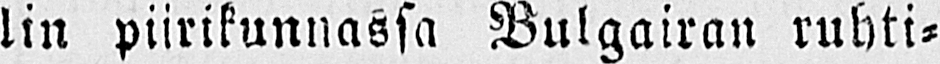lin piirikunnassa Bulgairan ruhti-
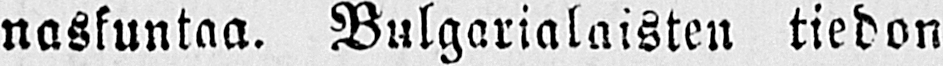naskuntaa. Bulgarialaisten tiedon
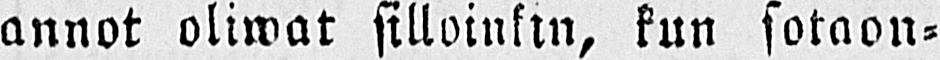annot oliwat silloinkin, kun sotaon-
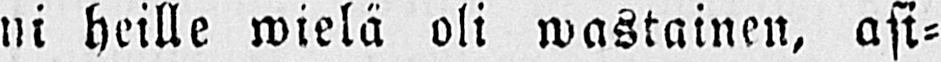ni heille wielä oli wastainen, asi-
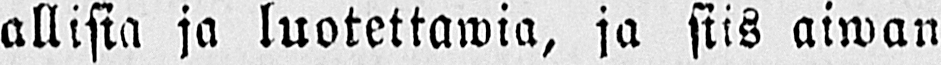allisia ja luotettawia, ja siis aiwan
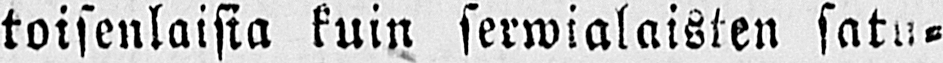toisenlaisia kuin serwialaisten satu-
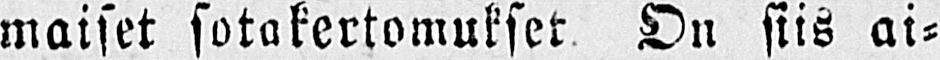maiset sota kertomukset. On siis ai-
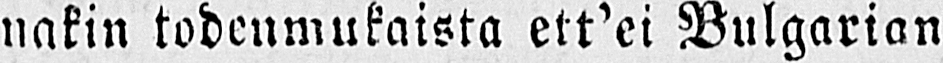nakin todenmukaista ett'ei Bulgarian
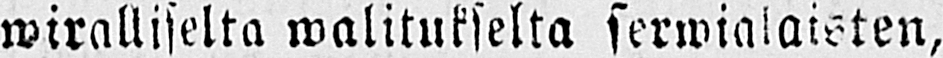wiralliselta walitukselta serwialaisten,
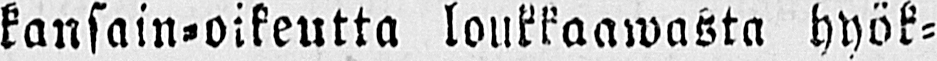kansain-oikeutta loukkaawasta hyök-
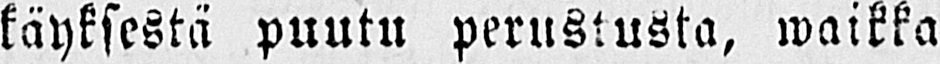käyksestä puutu perustusta, waikka
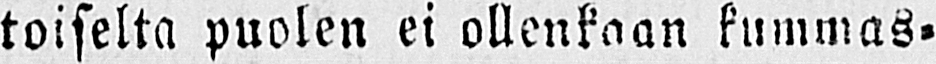toiselta puolen ei ollenkaan kummas-
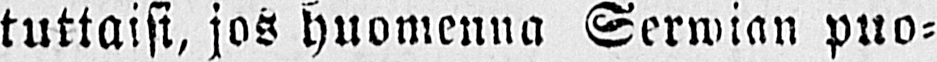tuttaisi, jos huomenna Serwian puo-
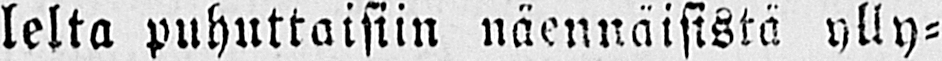lelta puhuttaisiin näennäisistä ylly-
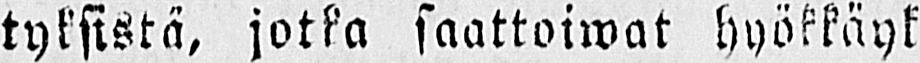tyksistä, jotka saattoiwat hyökkäyk-
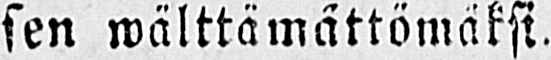sen wälttämättömäksi.
